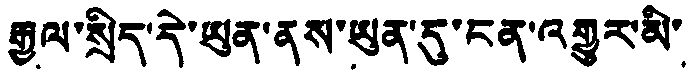རྒྱལ་སྲིད་དེ་ཡུན་ནས་ཡུན་དུ་ངན་འགྱུར་མི་
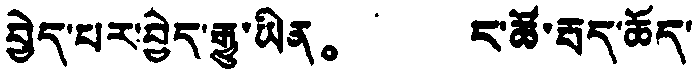བྱེད་པར་བྱེད་རྒྱུ་ཡིན。 ང་ཚོ་རྦད་ཆོད་
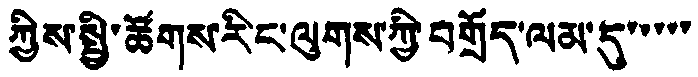ཀྱིས་སྤྱི་ཚོགས་རི་ང་ལུགས་ཀྱི་བགྲོད་ལམ་དུ་་་་་་
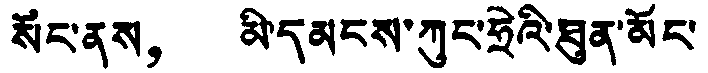སོང་ནས， མི་དམངས་ཀུང་ཧྲེའི་ཐུན་མོང་
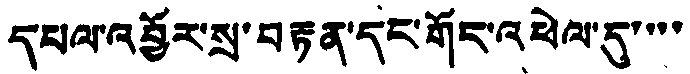དཔལ་འབྱོར་སྲ་བརྟན་དང་གོང་འཕེལ་དུ་་་་
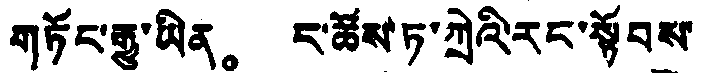གཏོང་རྒྱུ་ཡིན。 ང་ཚོས་ཏ་ཀྲེའི་རང་སྟོབས་
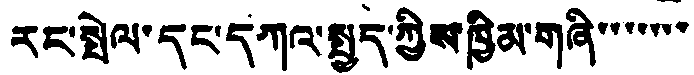རང་སྤེལ་དང་དཀའ་སྤྱད་ཀྱིས་ཁྱིམ་གཞི་་་་་་་་
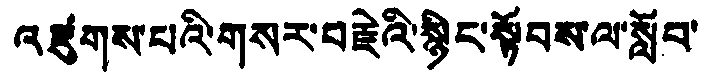འཛུགས་པའི་གསར་བརྗེའི་སྙིང་སྟོབས་ལ་སློབ་
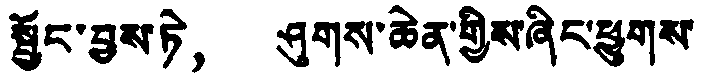སྦྱོང་བྱས་ཏེ， ཤུགས་ཆེན་གྱིས་ཞིང་ཕྱུགས་
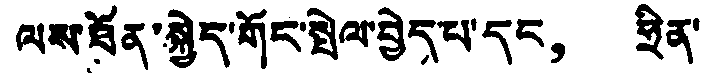ལས་ཐོན་སྐྱེད་གོང་སྤེལ་བྱེད་པ་དང， ཧྲིན་
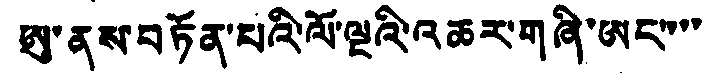ཨུ་ནས་བཏོན་པའི་ལོ་ལྔའི་འཆར་གཞི་ཨང་་་་
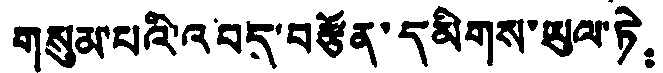གསུམ་པའི་འབད་བརྩོན་དམིགས་ཡུལ་ཏེ：
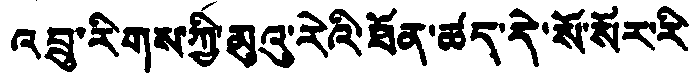འབྲུ་རིགས་ཀྱི་མུའུ་རེའི་ཐོན་ཚད་དེ་སོ་སོར་རི
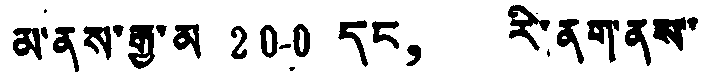མ་ནས་རྒྱུ་མ 200 དང， རི་ནག་ནས་
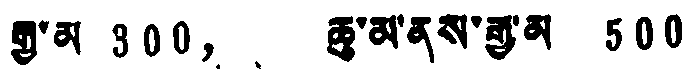རྒྱ་མ 300， ཆུ་མ་ནས་རྒྱ་མ 500
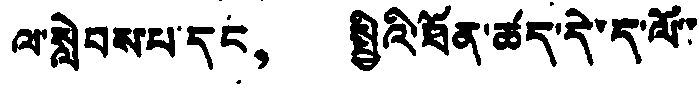ལ་སླེབས་པ་དང， སྤྱིའི་ཐོན་ཚད་དེ་ད་ལོ་་
